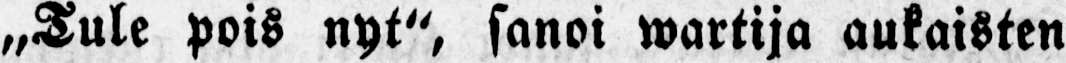„Tule pois nyt", sanoi wartija aukaisten
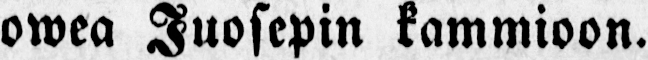owea Juosepin kammioon.
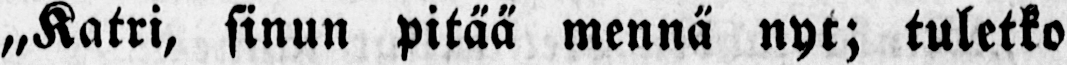„Katri, sinun pitää mennä nyt; tuletko
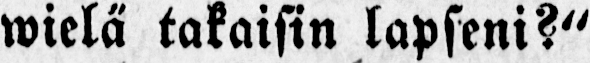wielä takaisin lapseni?"
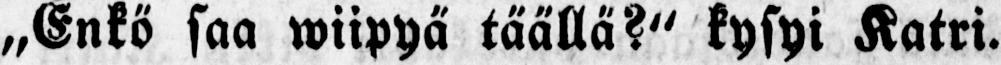„Enkö saa wiipyä täällä ?" kysyi Katri.
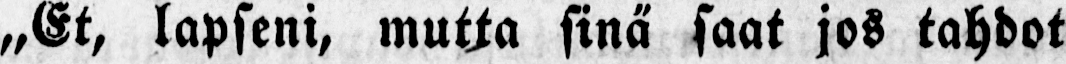„Et, lapseni, mutta sinä saat jos tahdot
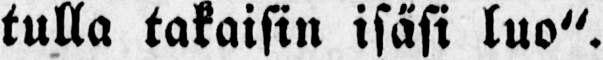tulla takaisin isä si luo".
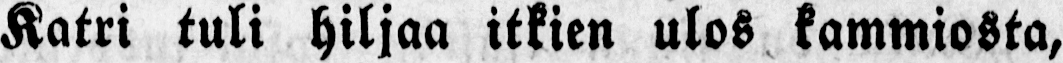Katri tuli hiljaa itkien ulos kammiosta,
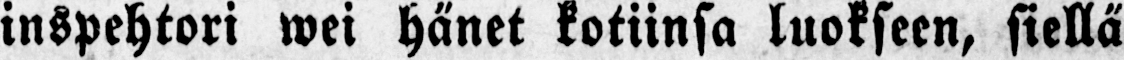inspehtori wei hä net kotiinsa luokseen, siellä
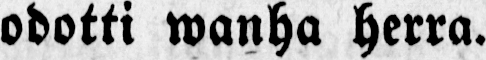odotti wanha herra.
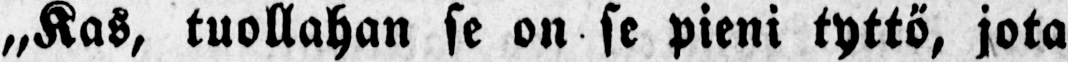„Kas, tuollahan se on se pieni tyttő , jota
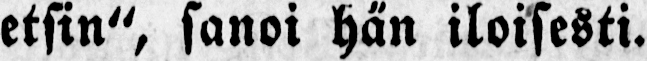etsin", sanoi hä n iloisesti.
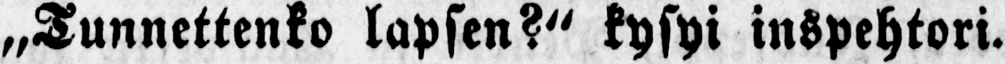„Tunnettenko lapsen?" kysyi inspehtori.
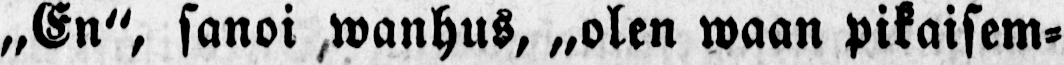„En", sanoi wanhus, „olen waan pikaisem-
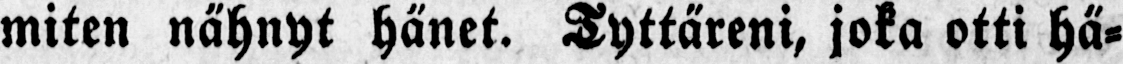miten nä hnyt hä net. Tyttä reni, joka otti hä-
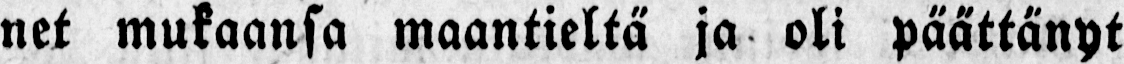net mukaansa maantieltä ja oli päättä nyt
